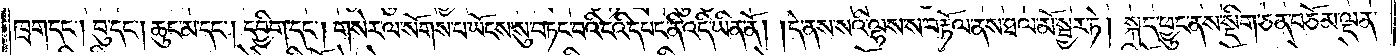ཁྲག་དང༌། བུ་དང༌། ཆུང་མ་དང༌། དབྱིག་དང༌། གསེར་ལ་སོགས་པ་ཡོངས་སུ་བཏང་བའི་ངའི་དཔང་ནི་འདི་ཡིན་ནོ། །དེ་ནས་སའི་ལྷས་ས་བརྟོལ་ནས་ཐལ་མོ་སྦྱར་ཏེ། སྐད་ཕྱུང་ནས་སྡིག་ཅན་བཅོམ་ལྡན་
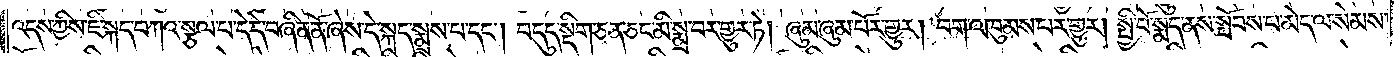འདས་ཀྱིས་ཇི་སྐད་བཀའ་སྩལ་པ་དེ་དེ་བཞིན་ནོ་ཞེས་དེ་སྐད་སྨྲས་པ་དང༌། བདུད་སྡིག་ཅན་ཅང་མི་སྨྲ་བར་གྱུར་ཏེ། ཞུམ་ཞུམ་པོར་གྱུར། བག་འཁུམས་པར་གྱུར། །སྤྱི་བོ་སྨད་ནས་སྤོབས་པ་མེད་ལ་སེམས་
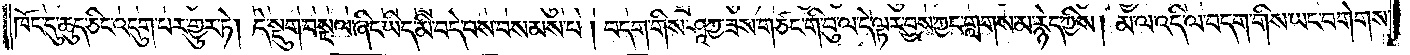ཁོང་དུ་ཆུད་ཅིང་འདུག་པར་གྱུར་ཏེ། དེ་སྡུག་བསྔལ་ཞིང་ཡིད་མི་བདེ་བས་བསམས་པ། བདག་གིས་ཤཱཀྱ་ཟས་གཙང་གི་བུ་ལ་དེ་ལྟར་བྱས་ཀྱང་གླགས་མ་རྙེད་ཀྱིས། མ་ལ་འདི་ལ་བདག་གིས་ཡང་བགེགས་
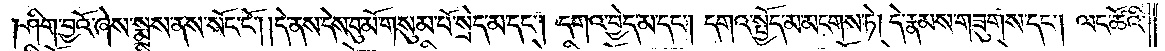ཤིག་བྱའོ་ཞེས་སྨྲས་ནས་སོང་ངོ༌། །དེ་ནས་དེས་བུ་མོ་གསུམ་པོ་སྲེད་མ་དང༌། དགའ་བྱེད་མ་དང༌། དགའ་སྤྱོད་མ་མངགས་ཏེ། དེ་རྣམས་གཟུགས་དང༌། ལང་ཚོའི་
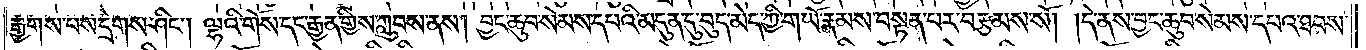རྒྱགས་པས་དྲེགས་ཤིང༌། ལྷའི་གོས་དང་རྒྱན་གྱིས་ཀླུབས་ནས། བྱང་ཆུབ་སེམས་དཔའི་མདུན་དུ་བུད་མེད་ཀྱི་གཡོ་རྣམས་བསྟན་པར་བརྩམས་སོ། །དེ་ནས་བྱང་ཆུབ་སེམས་དཔའ་ཐབས་
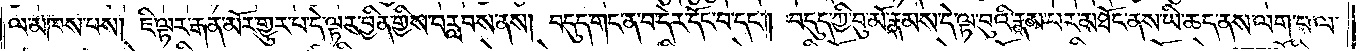ལ་མཁས་པས། ཇི་ལྟར་རྒན་མོར་གྱུར་པ་དེ་ལྟར་བྱིན་གྱིས་བརླབས་ནས། བདུད་གང་ན་བ་དེར་དོང་བ་དང༌། བདུད་ཀྱི་བུ་མོ་རྣམས་དེ་ལྟ་བུའི་རྣམ་པར་མཐོང་ནས་ཡི་ཆད་ནས་ལག་པ་ལ་
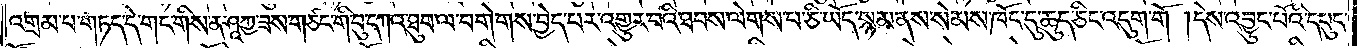འགྲམ་པ་གཏད་དེ་གང་གིས་ན་ཤཱཀྱ་ཟས་གཙང་གི་བུ་དཀའ་ཐུབ་ལ་བགེགས་བྱེད་པར་འགྱུར་བའི་ཐབས་ལེགས་པ་ཅི་ཡོད་སྙམ་ནས་སེམས་ཁོང་དུ་ཆུད་ཅིང་འདུག་གོ །དེས་འབྱུང་པོའི་དཔུང་
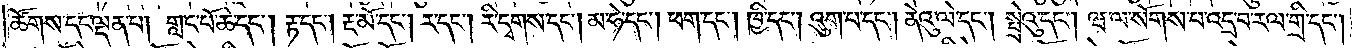ཚོགས་དང་ལྡན་པ། གླང་པོ་ཆེ་དང༌། རྟ་དང༌། རྔ་མོ་དང༌། ར་དང༌། རི་དྭགས་དང༌། མ་ཧེ་དང༌། ཕག་དང༌། ཁྱི་དང༌། འུག་པ་དང༌། ནེའུ་ལེ་དང༌། སྤྲེའུ་དང༌། ཝ་ལ་སོགས་པ་འདྲ་བ་རལ་གྲི་དང༌།
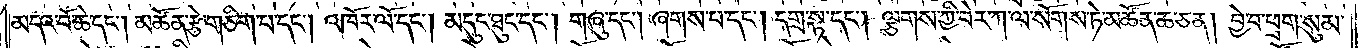མདའ་བོ་ཆེ་དང༌། མཚོན་རྩེ་གཅིག་པ་དང༌། འཁོར་ལོ་དང༌། མདུང་ཐུང་དང༌། གཞུ་དང༌། ཞགས་པ་དང༌། དགྲ་སྟ་དང༌། ལྕགས་ཀྱི་བེར་ཀ་ལ་སོགས་ཏེ་མཚོན་ཆ་ཅན། བྱེ་བ་ཕྲག་སུམ་
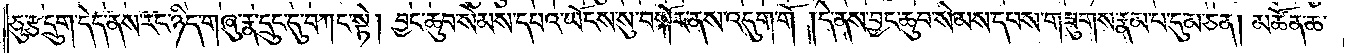ཅུ་རྩ་དྲུག་དེད་ནས་རང་ཉིད་གཞུ་རྣ་དྲུང་དུ་བཀང་སྟེ། བྱང་ཆུབ་སེམས་དཔའ་ཡོངས་སུ་བསྐོར་ནས་འདུག་གོ །དེ་ནས་བྱང་ཆུབ་སེམས་དཔས་གཟུགས་རྣམ་པ་དུ་མ་ཅན། མཚོན་ཆ་
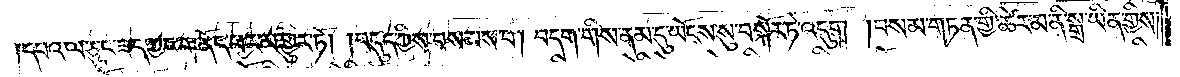དཔའ་ལ་ཅུང་ཟད་ཀྱང་གནོད་པར་མ་གྱུར་ཏོ། །བདུད་ཀྱིས་བསམས་པ། བདག་གིས་ནམ་དུ་ཡོངས་སུ་བསྐོར་ཏེ་འདུག །བསམ་གཏན་གྱི་ཚེར་མ་ནི་སྒྲ་ཡིན་གྱིས།
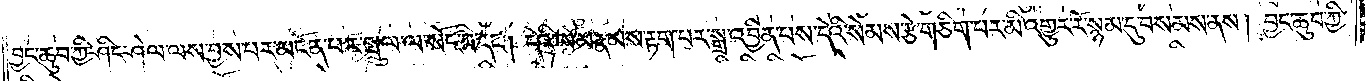བྱང་ཆུབ་ཀྱི་ཤིང་ཤེལ་ལས་བྱས་པར་མངོན་པར་སྤྲུལ་ལ་སོང་བ་དང༌། དེའི་ལོ་མ་རྣམས་རྟག་པར་སྒྲ་འབྱིན་པས་དེའི་སེམས་རྩེ་གཅིག་པར་མི་འགྱུར་རོ་སྙམ་དུ་བསམས་ནས། བྱང་ཆུབ་ཀྱི་
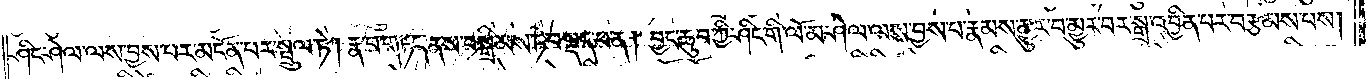ཤིང་ཤེལ་ལས་བྱས་པར་མངོན་པར་སྤྲུལ་ཏེ། རྣ་བ་གཏད་ནས་བསྒྲིམས་ཏེ་བསྡད་པ་ན། བྱང་ཆུབ་ཀྱི་ཤིང་གི་ལོ་མ་ཤེལ་ལས་བྱས་པ་རྣམས་མྱུར་བ་མྱུར་བར་སྒྲ་འབྱིན་པར་བརྩམས་པས།
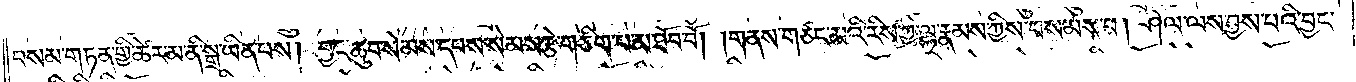བསམ་གཏན་གྱི་ཚེར་མ་ནི་སྒྲ་ཡིན་པས། བྱང་ཆུབ་སེམས་དཔས་སེམས་རྩེ་གཅིག་པ་མ་ཐོབ་བོ། །གནས་གཙང་མའི་རིས་ཀྱི་ལྷ་རྣམས་ཀྱིས་བསམས་པ། ཤེལ་ལས་བྱས་པའི་བྱང་
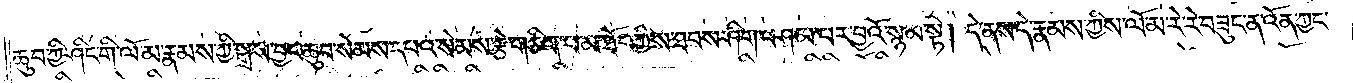ཆུབ་ཀྱི་ཤིང་གི་ལོ་མ་རྣམས་ཀྱི་སྒྲས་བྱང་ཆུབ་སེམས་དཔའ་སེམས་རྩེ་གཅིག་པ་མ་ཐོབ་ཀྱིས་ཐབས་ཤིག་བཤམ་པར་བྱའོ་སྙམ་སྟེ། དེ་ནས་དེ་རྣམས་ཀྱིས་ལོ་མ་རེ་རེ་བཟུང་ན་འོན་ཀྱང་
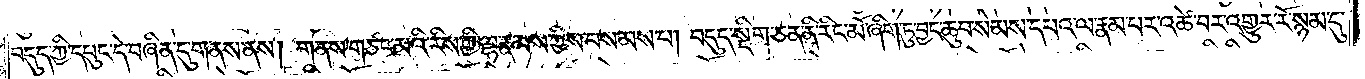བདུད་ཀྱི་དཔུང་དེ་བཞིན་དུ་གནས་ནས། གནས་གཙང་མའི་རིས་ཀྱི་ལྷ་རྣམས་ཀྱིས་བསམས་པ། བདུད་སྡིག་ཅན་ནི་རིང་མོ་ཞིག་ཏུ་བྱང་ཆུབ་སེམས་དཔའ་ལ་རྣམ་པར་འཚེ་བར་འགྱུར་རོ་སྙམ་དུ་
